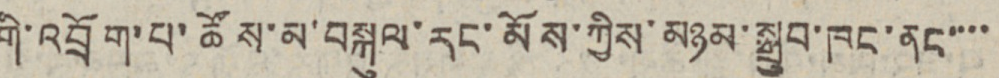གི་འབྲོག་པ་ཚོས་མ་བསྐུལ་རང་མོས་ཀྱིས་མཉམ་སྒྲུབ་ཁང་ནང་་་་
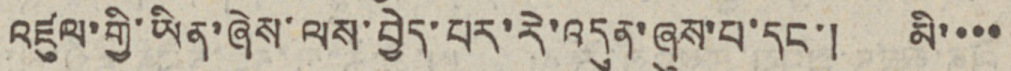འཛུལ་གྱི་ཡིན་ཞེས་ལས་བྱེད་པར་རེ་འདུན་ཞུས་པ་དང་། མི་་་་
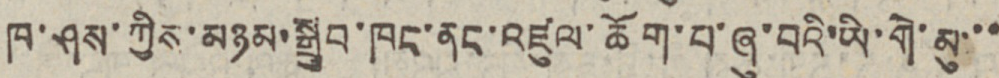ཁ་ཤས་ཀྱིས་མཉམ་སྒྲུབ་ཁང་ནང་འཛུལ་ཆོག་པ་ཞུ་བའི་ཡི་གེ་མུ་་་
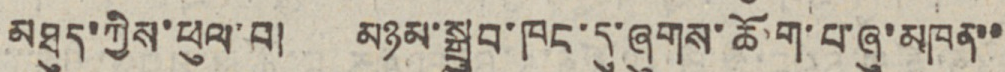མཐུད་ཀྱིས་ཕུལ་བ། མཉམ་སྒྲུབ་ཁང་དུ་ཞུགས་ཆོག་པ་ཞུ་མཁན་་
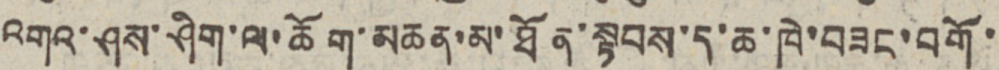འགའ་ཤས་ཤིག་ལ་ཆོག་མཆན་མ་ཐོན་སྟབས་ད་ཆ་ཁེ་བཟང་བགོ་
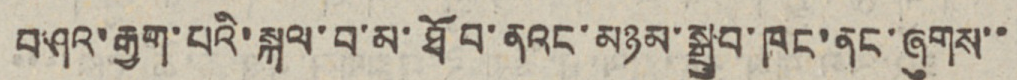བཤའ་རྒྱག་པའི་སྐལ་བ་མ་ཐོབ་ནའང་མཉམ་སྒྲུབ་ཁང་ནང་ཞུགས་་
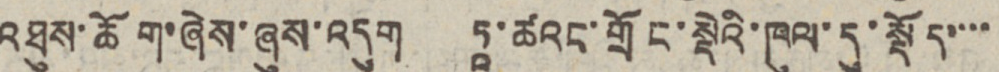འཐུས་ཆོག་ཞེས་ཞུས་འདུག ཏཱ་ཚའང་གྲོང་སྡེའི་ཁུལ་དུ་སྡོད་་་་
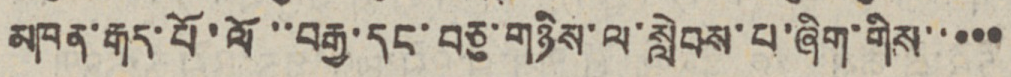མཁན་རྒད་པོ་ལོ་་བརྒྱ་དང་བཅུ་གཉིས་ལ་སླེབས་པ་ཞིག་གིས་་་་་
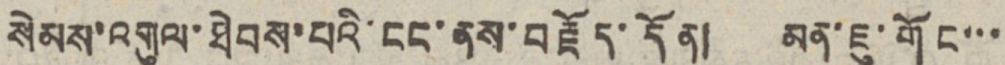སེམས་འགུལ་ཐེབས་པའི་ངང་ནས་བརྗོད་དོན། མན་ཇུ་གོང་་་
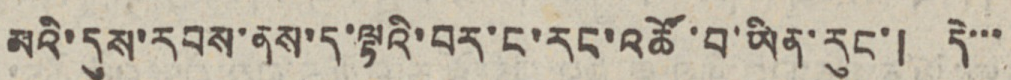མའི་དུས་རབས་ནས་ད་ལྟའི་བར་ང་རང་འཚོ་བ་ཡིན་རུང་། དེ་་་
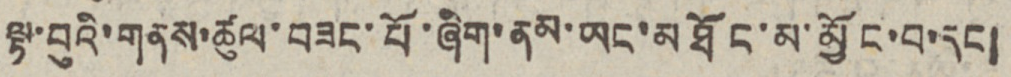ལྟ་བུའི་གནས་ཚུལ་བཟང་པོ་ཞིག་ནམ་ཡང་མཐོང་མ་མྱོང་བ་དང།
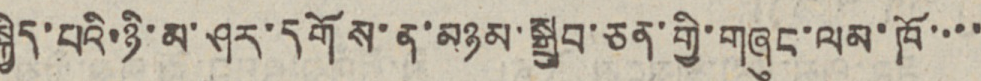སྐྱིད་པའི་ཉི་མ་ཤར་དགོས་ན་མཉམ་སྒྲུབ་ཅན་གྱི་གཞུང་ལམ་ཁོ་་་་
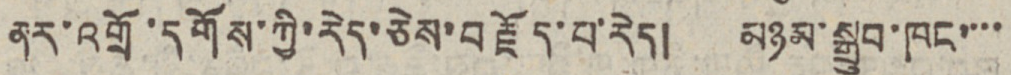ནར་འགྲོ་དགོས་ཀྱི་རེད་ཅེས་བརྗོད་པ་རེད། མཉམ་སྒྲུབ་ཁང་་་་
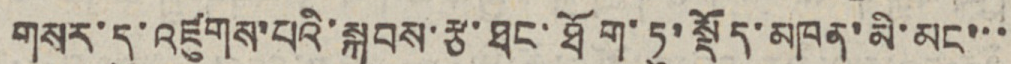གསར་དུ་འཛུགས་པའི་སྐབས་རྩ་ཐང་ཐོག་ཏུ་སྡོད་མཁན་མི་མང་་་
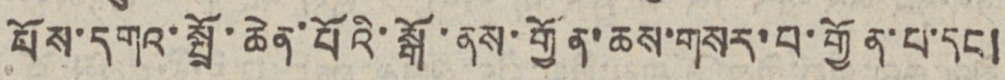པོས་དགའ་སྤྲོ་ཆེན་པོའི་སྒོ་ནས་གྱོན་ཆས་གསར་བ་གྱོན་པ་དང།
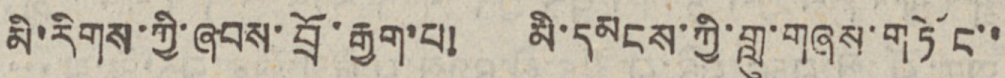མི་རིགས་ཀྱི་ཞབས་བྲོ་རྒྱག་པ། མི་དམངས་ཀྱི་གླུ་གཞས་གཏོང་་
